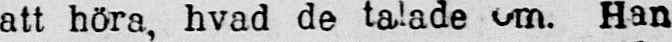att höra, hvad de talade om. Han
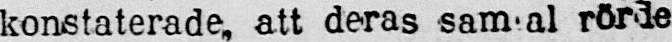konstaterade, att deras sam al rörde
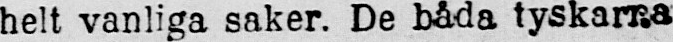helt vanliga saker. De båda tyskarna
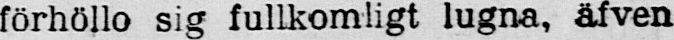förhöllo sig fullkomligt lugna, äfven
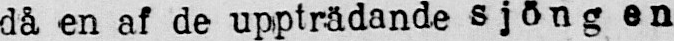då en af de uppträdande sjöng en
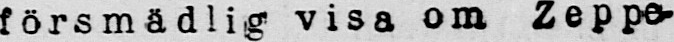försmädlig visa om Zeppe-
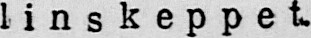linskeppet.
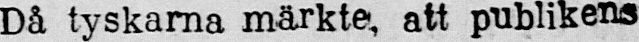Då tyskarna märkte, att publikens
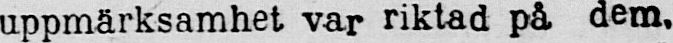uppmärksamhet var riktad på dem,
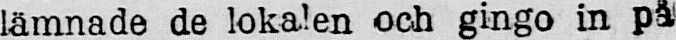lämnade de lokalen och gingo in pä
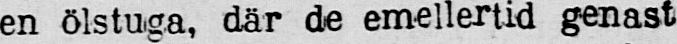en ölstuga, där de emellertid genast
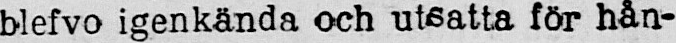blefvo igenkända och utsatta för hån-
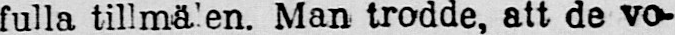fulla tillmälen. Man trodde, att de vo-
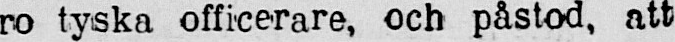ro tyska officerare, och påstod, att
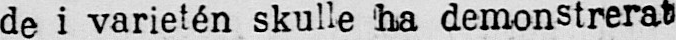de i varietén skulle ha demonstrerat
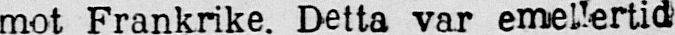mot Frankrike. Detta var emellertid
